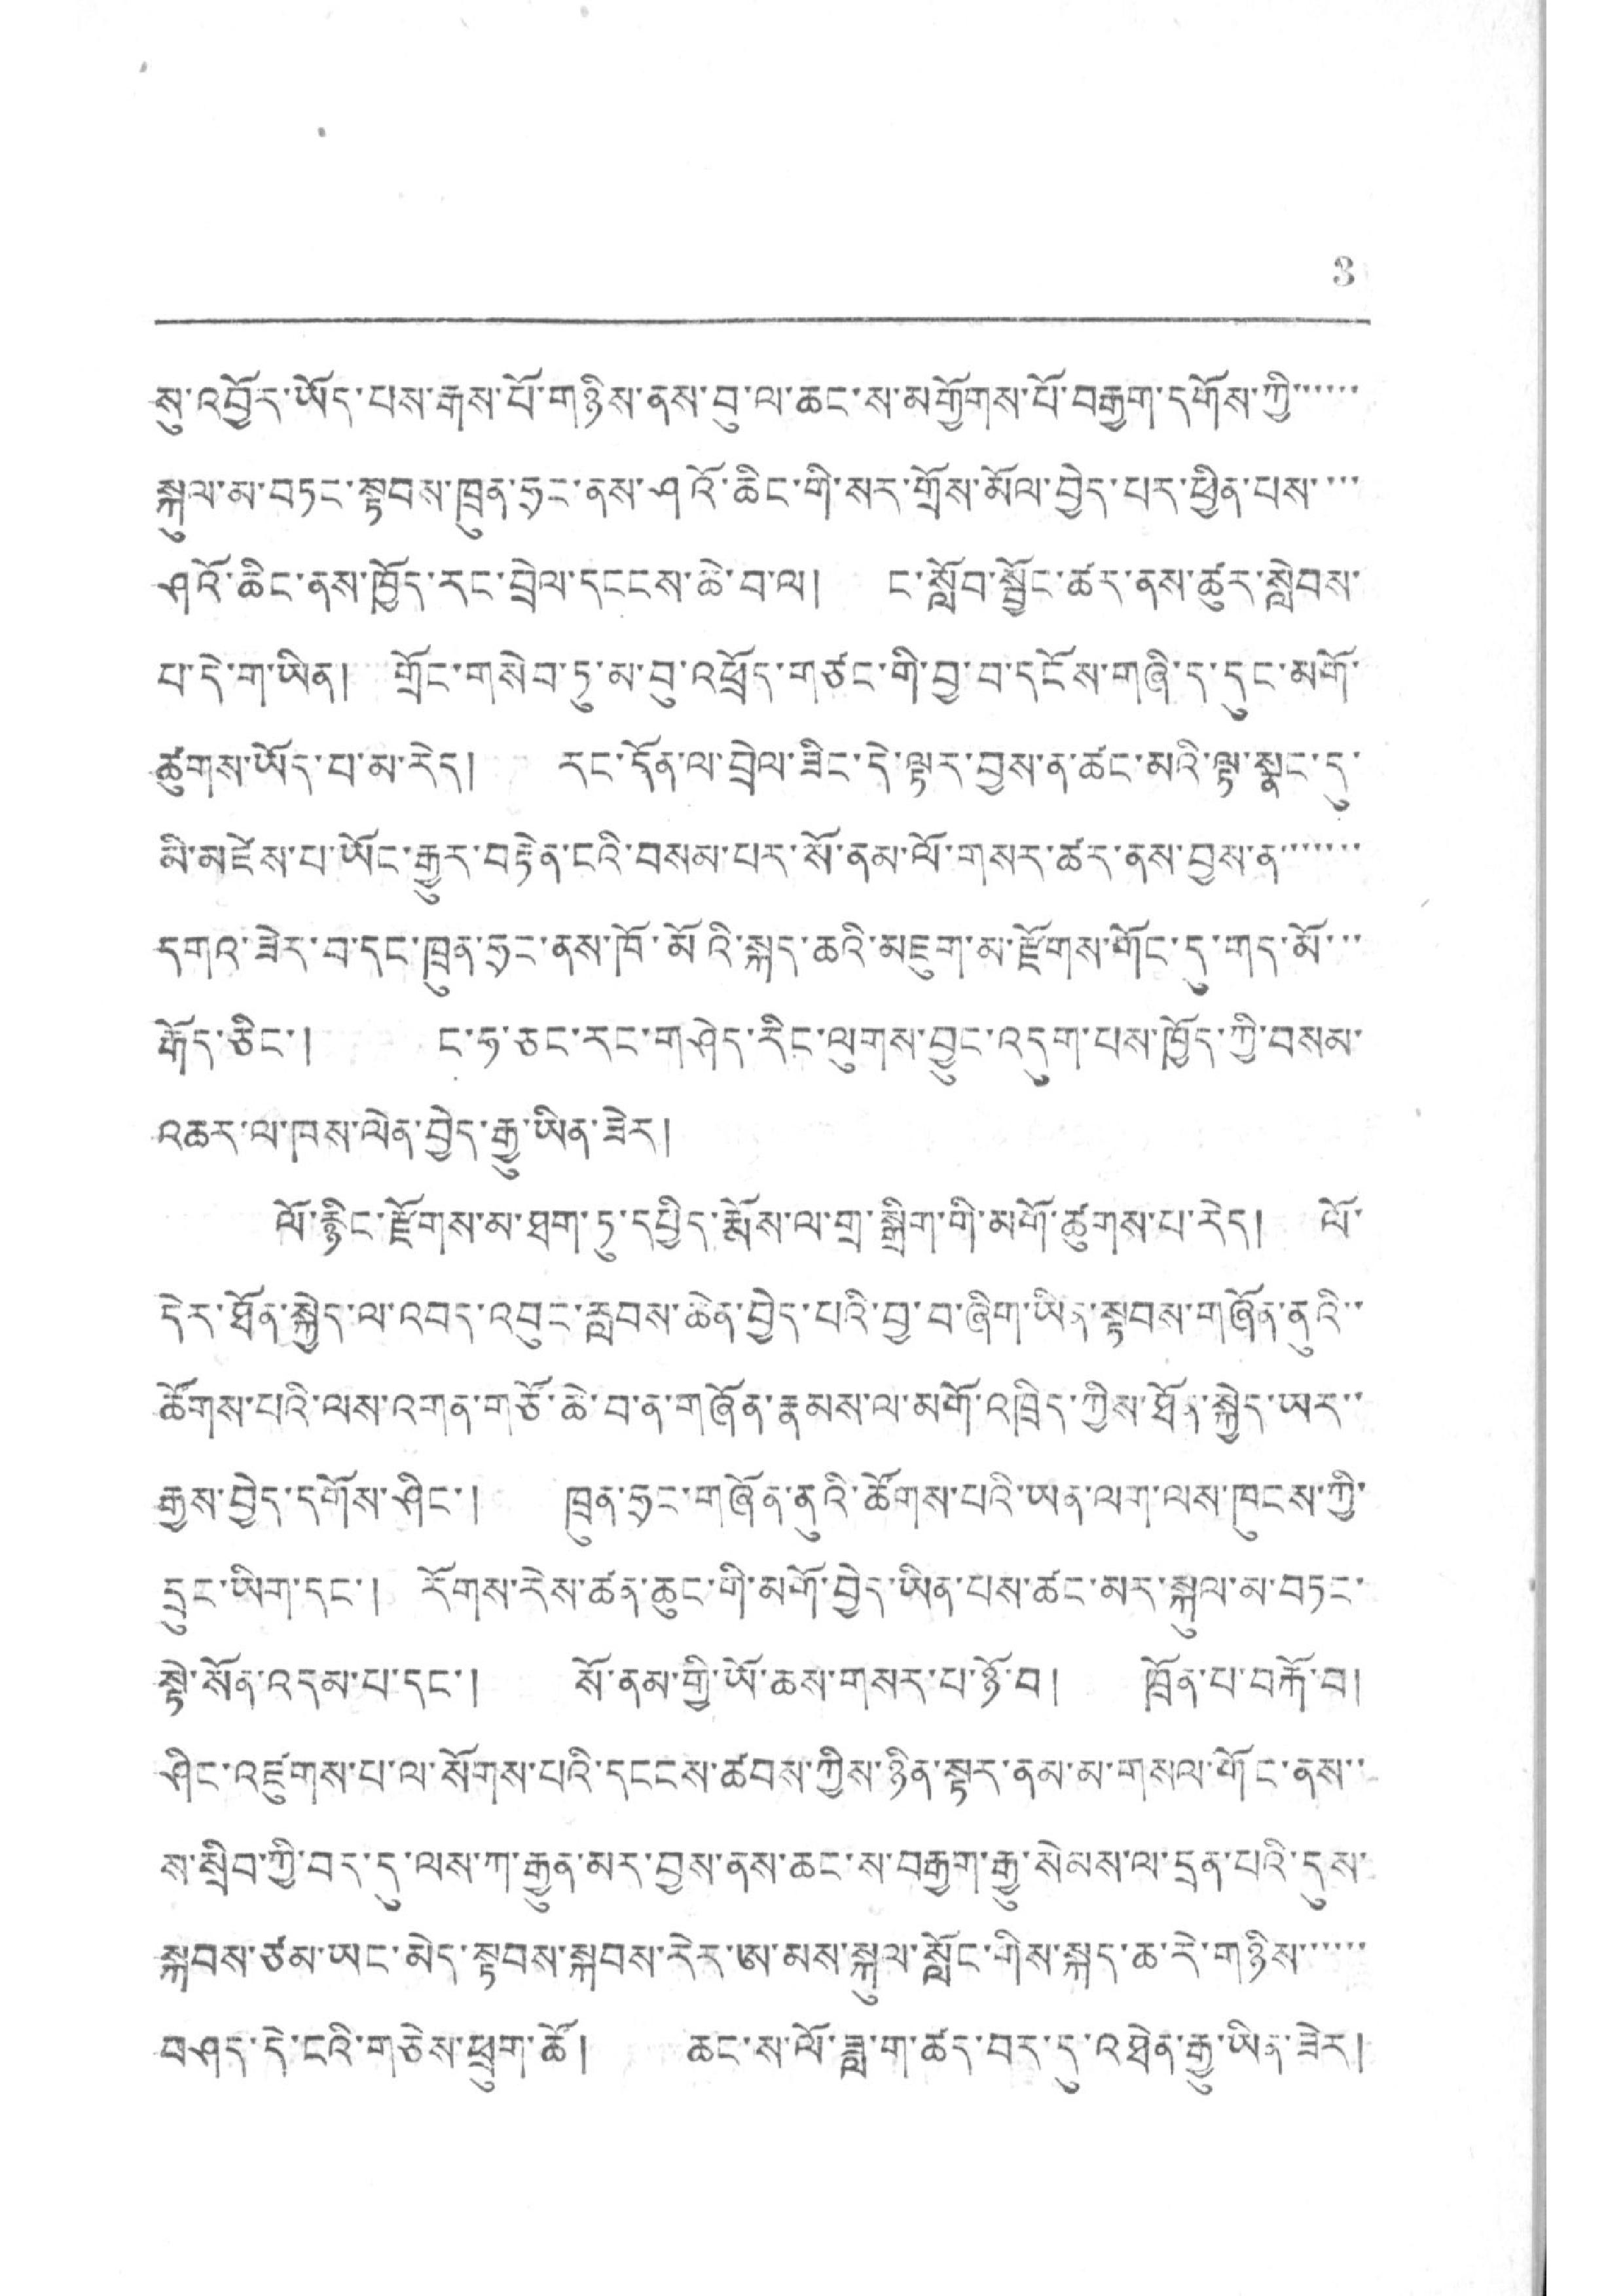3
སུ་འབྱོར་ཡོད་པས་རྒས་པོ་གཉིས་ནས་བུ་ལ་ཆང་ས་མགྱོགས་པོ་བརྒྱག་དགོས་ཀྱི་་་་་་
སྐུལ་མ་བཏང་སྟབས་ཁྲུན་ཧྲང་ནས་ཤའོ་ཆིང་གི་སར་གྲོས་མོལ་བྱེད་པར་ཕྱིན་པས་་་་
ཤའོ་ཆིང་ནས་ཁྱོད་རང་བྲེལ་དངངས་ཆེ་བ་ལ། ང་སློབ་སྦྱོར་ཚར་ནས་ཚུར་སླེབས་
པ་དེ་ག་ཡིན། གྲོང་གསེབ་ཏུ་མ་བུ་འཕྲོད་གཙང་གི་བྱ་བ་དངོས་གཞི་ད་དུང་མགོ་
ཚུགས་ཡོད་པ་མ་རེད། རང་དོན་ལ་བྲེལ་ཟིང་དེ་ལྟར་བྱས་ན་ཚང་མའི་ལྟ་སྣང་དུ་
མི་མཛེས་པ་ཡོང་རྒྱུར་བརྟེན་ངའི་བསམ་པར་སོ་ནམ་ལོ་གསར་ཚར་ནས་བྱས་ན་་་་་་་
དགའ་ཟེར་བ་དང་ཁྲུན་ཧྲང་ནས་ཁོ་མོའི་སྐད་ཆའི་མཇུག་མ་རྫོགས་གོང་དུ་གད་མོ་་་
རྒོད་ཅིང་། ང་ཧ་ཅང་རང་གཤེད་རིང་ལུགས་བྱུང་འདུག་པས་ཁྱོད་ཀྱི་བསམ་
འཆར་ལ་ཁས་ལེན་བྱེད་རྒྱུ་ཡིན་ཟེར།
ལོ་རྙིང་རྫོགས་མ་ཐག་ཏུ་དཔྱིད་རྨོས་ལ་གྲ་སྒྲིག་གི་མགོ་ཚུགས་པ་རེད། ལོ་
དེར་ཐོན་སྐྱེད་ལ་འབད་འབུང་རླབས་ཆེན་བྱེད་པའི་བྱ་བ་ཞིག་ཡིན་སྟབས་གཞོན་ནུའི་་
ཚོགས་པའི་ལས་འགན་གཙོ་ཆེ་བ་ན་གཞོན་རྣམས་ལ་མགོ་འཁྲིད་ཀྱིས་ཐོན་སྐྱེད་ཡར་་
རྒྱས་བྱེད་དགོས་ཤིང་། ཁྲུན་ཧྲང་གཞོན་ནུའི་ཚོགས་པའི་ཡན་ལག་ལས་ཁུངས་ཀྱི་
དྲུང་ཡིག་དང་། རོགས་རེས་ཚན་ཆུང་གི་མགོ་བྱེད་ཡིན་པས་ཚང་མར་སྐུལ་མ་བཏང་།
སྟེ་སོན་འདམ་པ་དང་། སོ་ནམ་གྱི་ཡོ་ཆས་གསར་པ་ཉོ་བ། ཁྲོན་པ་བཀོ་བ།
ཤིར་འཛུགས་པ་ལ་སོགས་པའི་དངངས་ཚབས་ཀྱིས་ཉིན་སྟར་ནམ་མ་གསལ་གོང་ནས་་
ས་སྲིབ་ཀྱི་བར་དུ་ལས་ཀ་རྒྱུན་མར་བྱས་ནས་ཆང་ས་བརྒྱག་རྒྱུ་སེམས་ལ་དྲན་པའི་དུས་
སྐབས་ཙམ་ཡང་མེད་སྟབས་སྐབས་རེར་ཨ་མས་སྐུལ་སློང་གིས་སྐད་ཆ་དེ་གཉིས་་་་་་
བཤད་དེ་ངའི་གཅེས་ཕྲུག་ཚོ། ཆང་ས་ལོ་ཟླ་ག་ཚད་བར་དུ་འཐེན་རྒྱུ་ཡིན་ཟེར།
